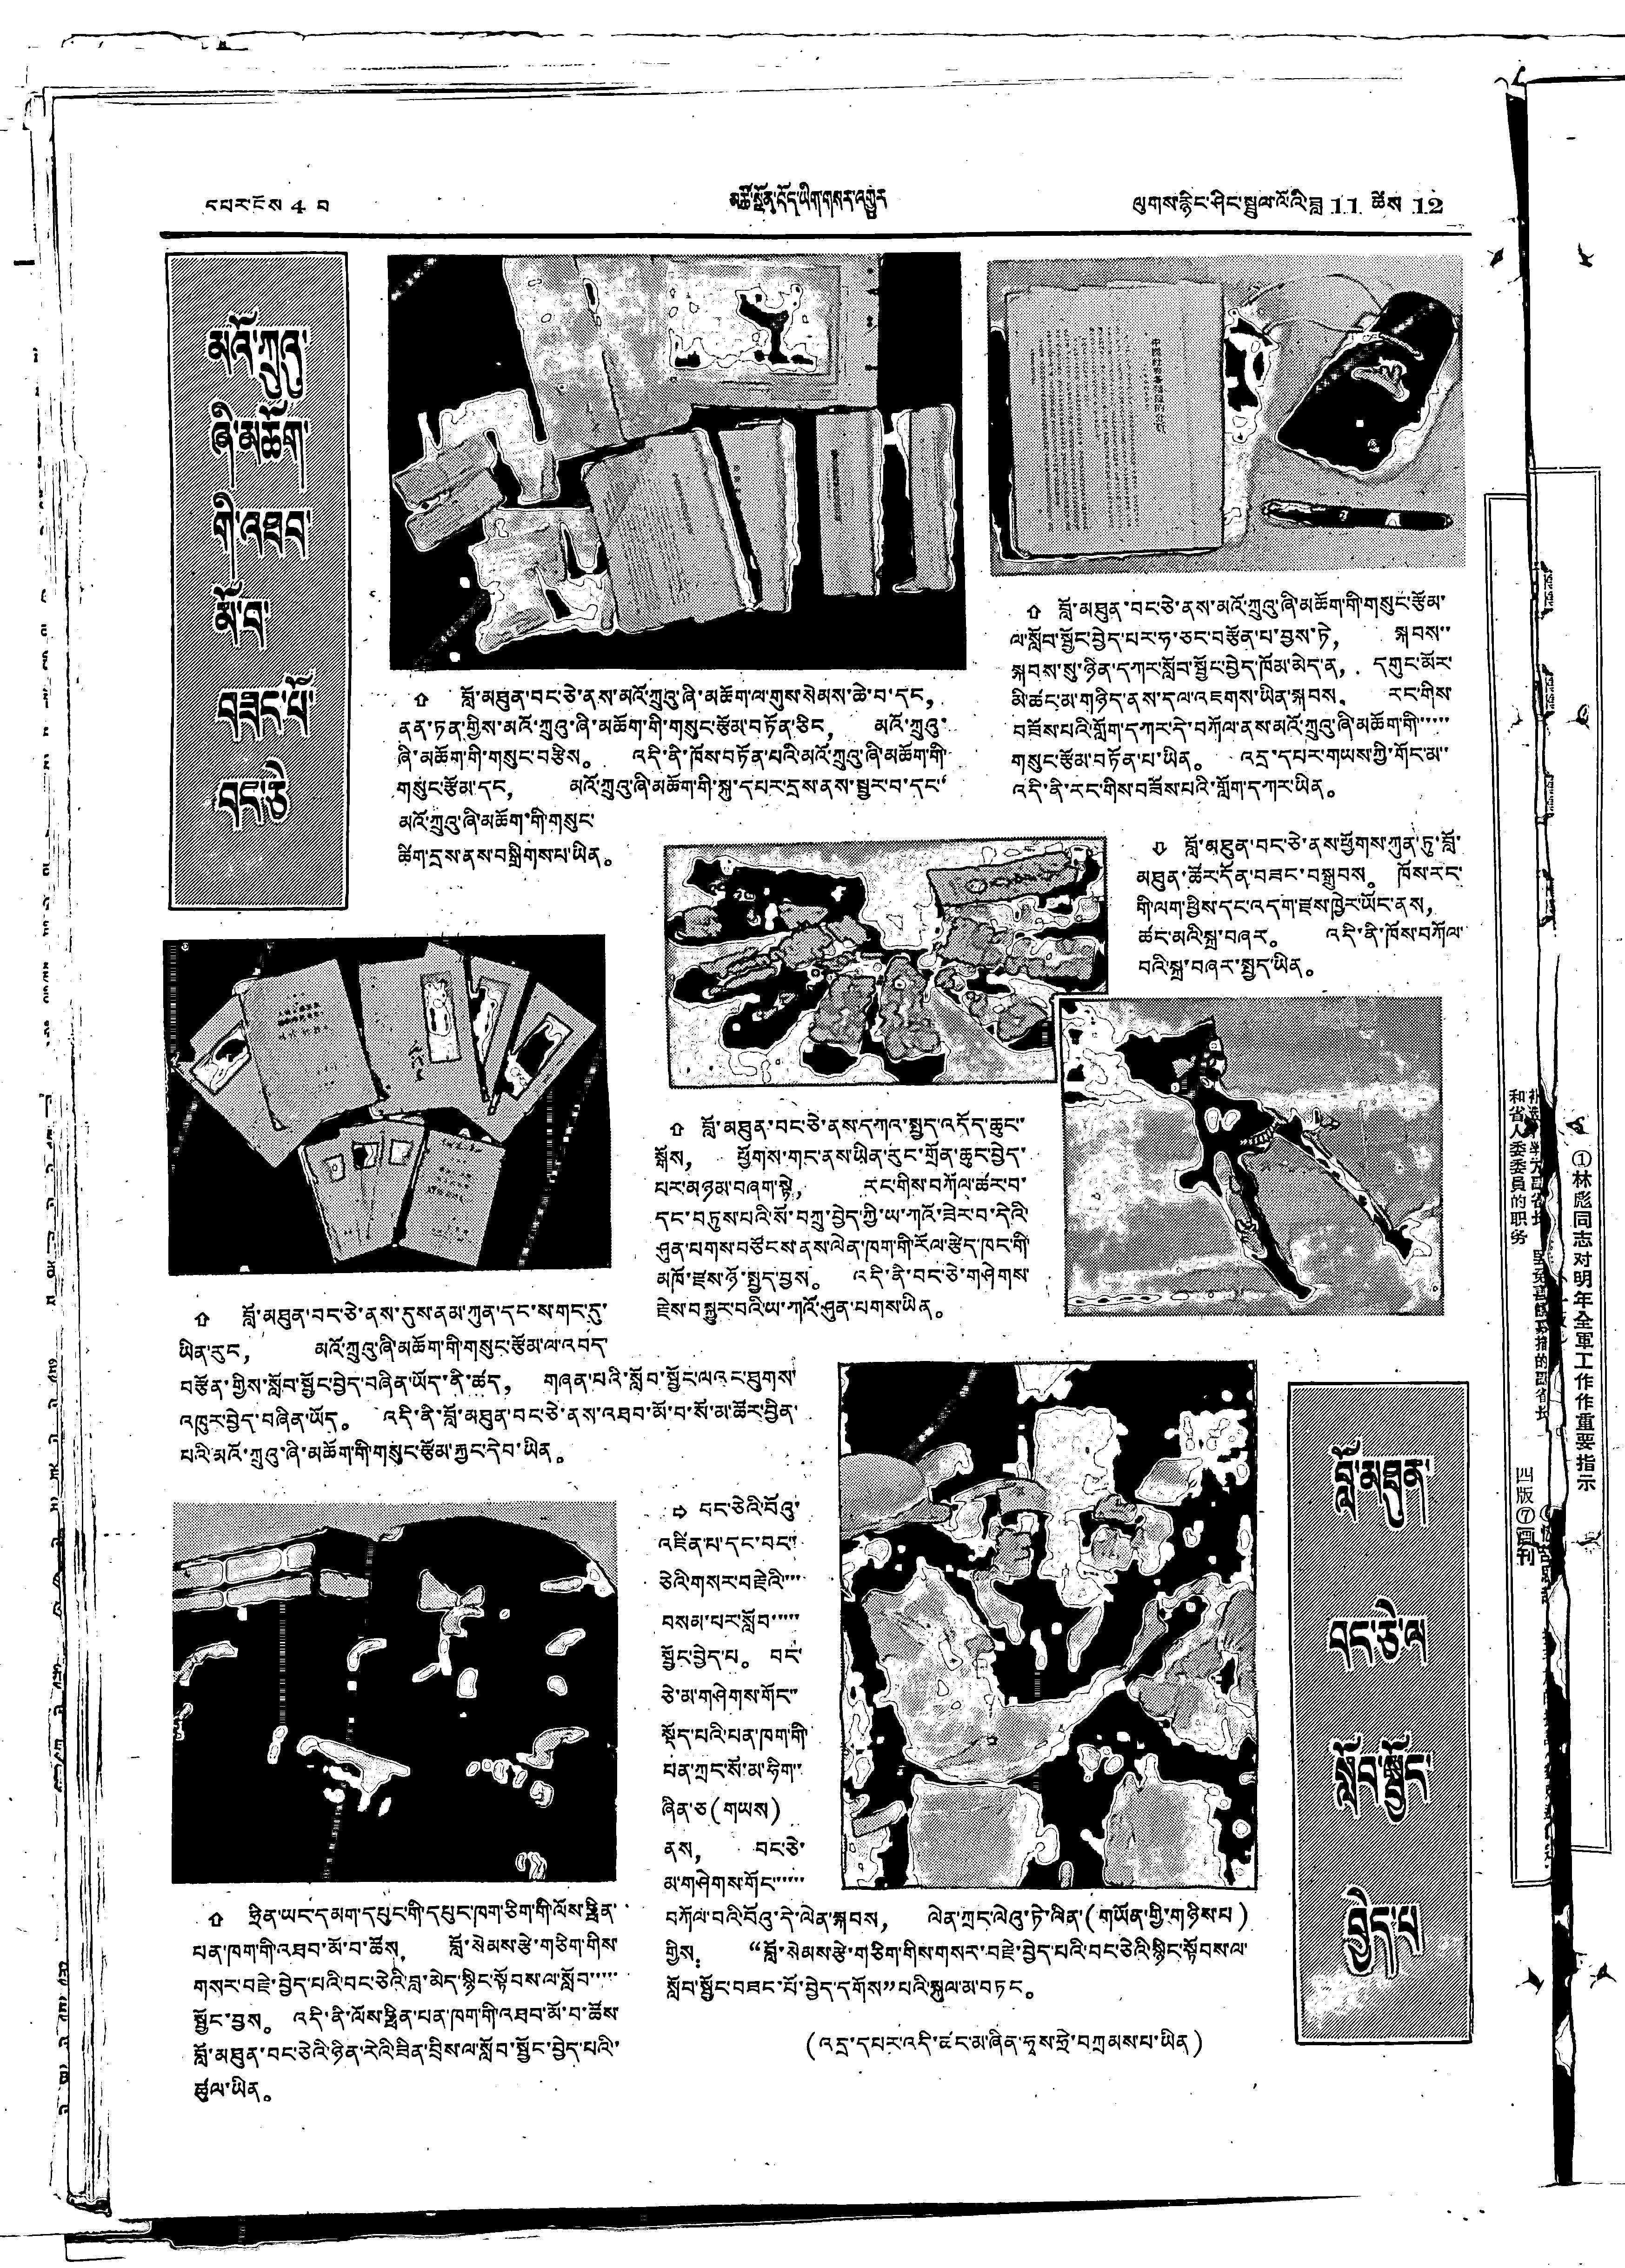དཔར་ངོས 4 པ མཚོ་སྔོན་བོད་ཡིག་གསར་འགྱུར ལུགས་རྙིང་ཤིང་སྦྲུལ་ལོའི་ཟླ 11 ཚེས 12
མའོ་ཀྲུའུ་
ཞི་མཆོག་
གི་འཐབ་
མོ་བ་
བཟང་པོ་
བང་ཅེ
⇧ བློ་མཐུན་བང་ཅེ་ནས་མའོ་ཀྲུའུ་ཞི་མཆོག་ལ་གུས་སེམས་ཆེ་བ་དང，
ནན་ཏན་གྱིས་མའོ་ཀྲུའུ་ཞི་མཆོག་གི་གསུང་རྩོམ་བཏོན་ཅིང， མའོ་ཀྲུའུ་
ཞི་མཆོག་གི་གསུང་བརྩིས。 འདི་ནི་ཁོས་བཏོན་པའི་མའོ་ཀྲུའུ་ཞི་མཆོག་གི་
གསུང་རྩོམ་དང， མའོ་ཀྲུའུ་ཞི་མཆོག་གི་སྐུ་དཔར་དྲུས་ནས་སྦྱར་བ་དང་
མའོ་ཀྲུའུ་ཞི་མཆོག་གི་གསུང་
ཚིག་དྲས་ནས་བསྒྲིགས་པ་ཡིན。
⇧ བློ་མཐུན་བར་ཅེ་ནས་མའོ་ཀྲུའུ་ཞི་མཆོག་གི་གསུང་རྩོམ་
ལ་སློབ་སྦྱོང་བྱེད་པར་ཧ་ཅང་བརྩོན་པ་བྱས་ཏེ， སྐབས་་
སྐབས་སུ་ཉིན་དཀར་སློབ་སྦྱོང་བྱེད་ཁོམ་མེད་ན， དགུང་མོར་
མི་ཚང་མ་གཉིད་ནས་དལ་འཇགས་ཡིན་སྐབས， རང་གིས་
བཟོས་པའི་གློག་དཀར་དེ་བཀོལ་ནས་མའོ་ཀྲུའུ་ཞི་མཆོག་གི་་་་་་
གསུང་རྩོམ་བཏོན་པ་ཡིན。 འདྲ་དཔར་གཡས་ཀྱི་གོང་མ་་
འདི་ནི་རང་གིས་བཟོས་པའི་གློག་དཀར་ཡིན。
⇩ བློ་མཐུན་བར་ཅེ་ནས་ཕྱོགས་ཀུན་ཏུ་བློ་
མཐུན་ཚོར་དོན་བཟང་བསྒྲུབས。 ཁོས་རང་
གི་ལག་ཕྱིས་དང་འདུག་རྫས་ཁྱེར་ཡོང་ནས，
ཚང་མའི་སྐྲ་བཞར。 འདི་ནི་ཁོས་བཀོལ་
བའི་སྐྲ་བཞུར་སྤྱད་ཡིན。
⇧ བློ་མཐུན་བར་ཅེ་ནས་དཀའ་སྤྱད་འདོད་ཆུང་་
སྒོས， ཕྱོགས་གང་ནས་ཡིན་རུང་གྲོན་ཆུང་བྱེད་
པར་མཉམ་བཞག་སྟེ， རང་གིས་བཀོལ་ཚར་བ་
དང་བཏུས་པའི་སོ་བཀྲུ་བྱེད་ཀྱི་ཡ་ཀའོ་ཟེར་བ་དེའི་
མཁོ་རྫས་ཉོ་སྤྱད་བྱས。 འདི་ནི་བད་ཅེ་གཤེགས་
རྗེས་བསྐྱུར་བའི་ཡ་ཀའོ་ཤུན་པགས་ཡིན。
⇧ བློ་མཐུན་བད་ཅེ་ནས་དུས་ནམ་ཀུན་དང་ས་གང་དུ་
ཡིན་རུང， མའོ་ཀྲུའུ་ཞི་མཆོག་གི་གསུང་རྩོམ་ལ་འབད་
བརྩོན་གྱིས་སློབ་སྦྱོང་བྱེད་བཞིན་ཡོད་ནི་ཚད， གཞན་པའི་སློབ་སྦྱོང་ལའང་ཐུགས
འཁུར་བྱེད་བཞིན་ཡོད。 འདི་ནི་བློ་མཐུན་བང་ཅེ་ནས་འཐབ་མོ་བ་སོ་མ་ཚོར་བྱིན་
པའི་མའོ་ཀྲུའུ་ཞི་མཆོག་གི་གསུང་རྩོམ་རྐྱང་དེབ་ཡིན。
⇧ ཧྲིན་ཡང་དམག་དཔུང་གི་དཔུང་ཁག་ཅིག་གི་ལོས་ཧྥིན་་
པན་ཁག་གི་འཐབ་མོ་བ་ཚོས， བློ་སེམས་རྩེ་གཅིག་གིས་
གསར་བརྗེ་བྱེད་པའི་བང་ཅེའི་བླ་མེད་སྙིང་སྟོབས་ལ་སློབ་་་་་
སྦྱོང་བྱས。 འདི་ནི་ལོས་ཧྥིན་པན་ཁག་གི་འཐབ་མོ་བ་ཚོས་
བློ་མཐུན་བང་ཅེའི་ཉིན་རེའི་ཟིན་བྲིས་ལ་སློབ་སྦྱོང་བྱེད་པའི་་
ཚུལ་ཡིན。
⇨ བང་ཅེའི་བོའུ་
འཛིན་པ་དང་བང་
ཅེའི་གསར་བརྗེའི་་་་
བསམ་པར་སློབ་་་་་
སྦྱོང་བྱེད་པ。 བང་
ཅེ་མ་གཤེགས་གོང་་
སྡོད་པའི་པན་ཁག་གི་
པན་ཀྲང་སོ་མ་ཧིག་་
ཞིན་ཅ (གཡས)
ནས， བང་ཅེ་
མ་གཤེགས་གོང་་་་་་
བཀོལ་བའི་བོའུ་དེ་ལེན་སྐབས， ལེན་ཀྲང་ལེའུ་ཏེ་ལིན་(གཡོན་གྱི་གཉིས་པ)
གྱིས： “བློ་སེམས་རྩེ་གཅིག་གིས་གསར་བརྗེ་བྱེད་པའི་བང་ཅེའི་སྙིང་སྟོབས་ལ་
སློབ་སྦྱོང་བཟང་པོ་བྱེད་དགོས”པའི་སྐུལ་མ་བཏང。
(འདྲ་དཔར་འདི་ཚང་མ་ཞིན་ཧྭས་ཧྲེ་བཀྲམས་པ་ཡིན)
བློ་མཐུན་
བང་ཅེ་ལ
སློབ་སྦྱོང་
བྱེད་པ
①林彪同志对明年全軍工作作重要指示
补选  为副省長 罢免    的副省長
和省人民委員的职务
四版⑦画刊
